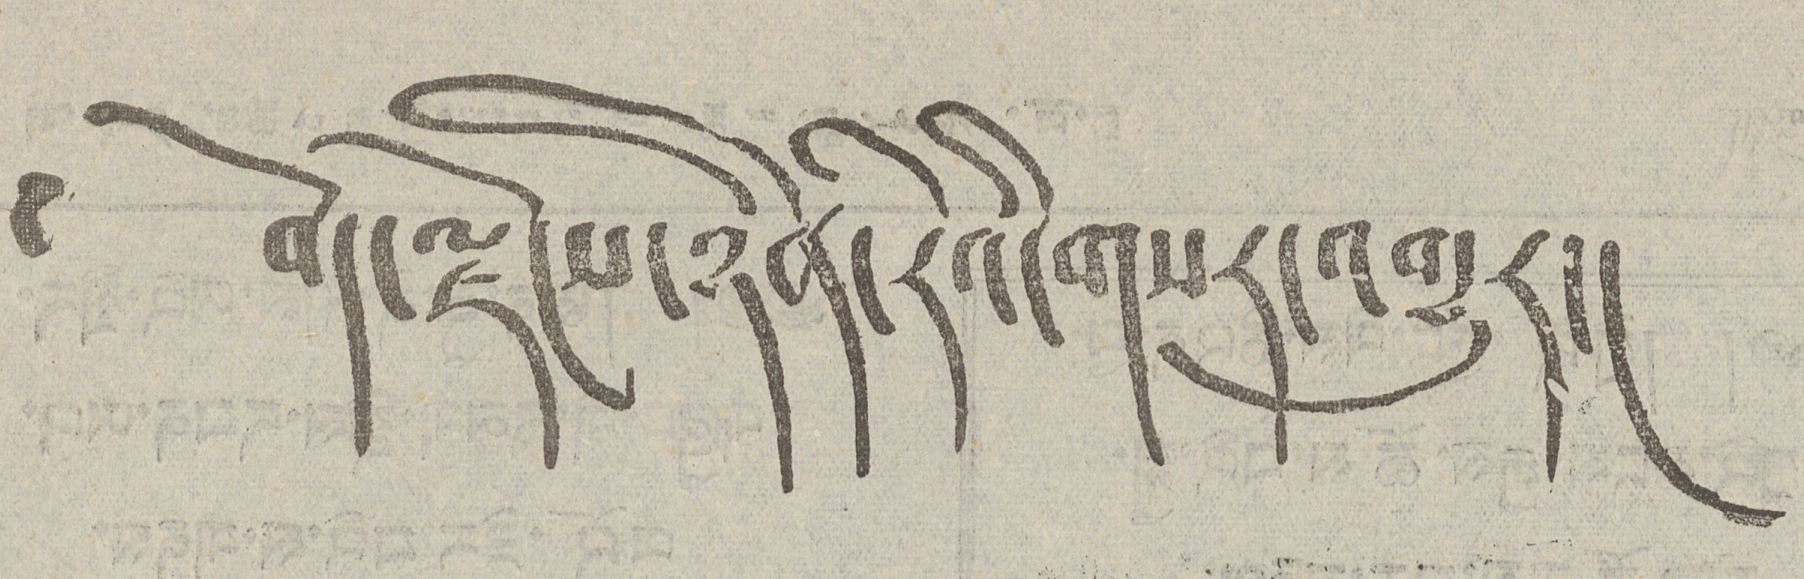༄ བོད་ལྗོངས་ཉིན་རེའི་གསར་འགྱུར།
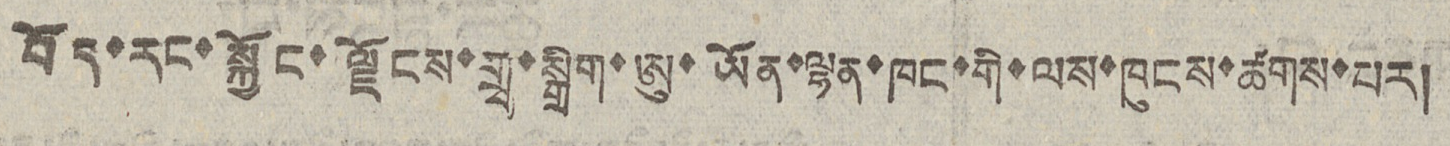བོད་རང་སྐྱོང་ལྗོངས་གྲྭ་སྒྲིག་ཨུ་ཡོན་ལྷན་ཁང་གི་ལས་ཁུངས་ཚགས་པར།
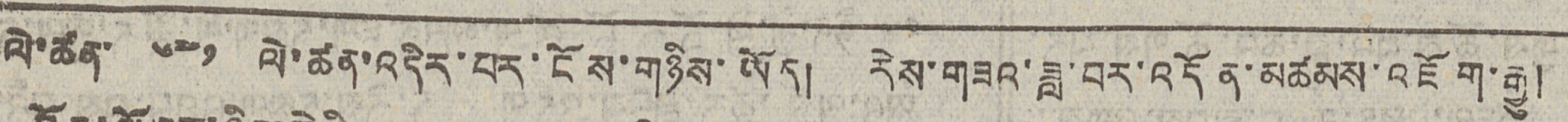ལེ་ཚན་ ༦༤༡ ལེ་ཚན་འདིར་པར་ངོས་གཉིས་ཡོད། རེས་གཟའ་ཟླ་བར་འདོན་མཚམས་འཇོག་རྒྱུ།
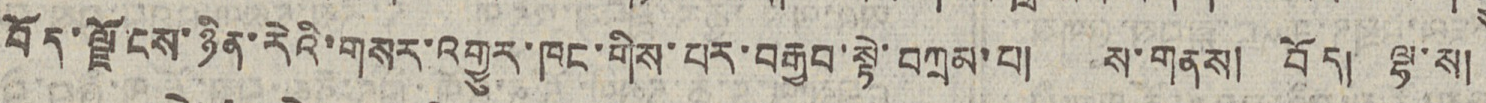བོད་ལྗོངས་ཉིན་རེའི་གསར་འགྱུར་ཁང་གིས་པར་བརྒྱབ་སྟེ་བཀྲམ་པ། ས་གནས། བོད། ལྟ་ས།
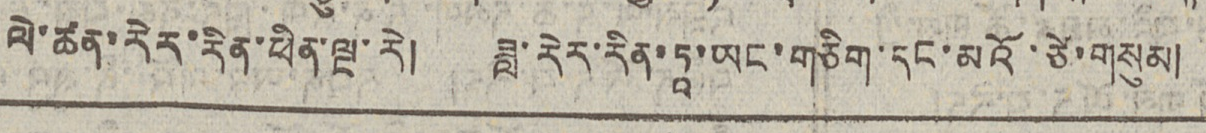ལེ་ཚན་རེར་རིན་ཕིན་ལྔ་རེ། ཟླ་རིར་རིན་ཏཱ་ཡང་གཅིག་དང་མའོ་ཙེ་གསུམ།
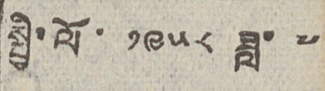སྤྱི་ལོ་ ༡༩༥༨ ཟླ་ ༧
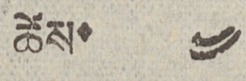ཚེས་ ༤
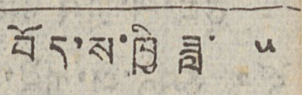བོད་ས་ཁྱི ཟླ་ ༥
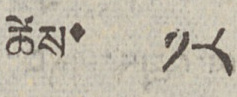ཚེས་ ༡༨
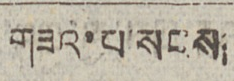གཟའ་པ་སངས།
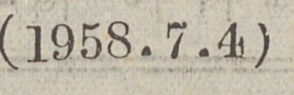(1958.7.4)
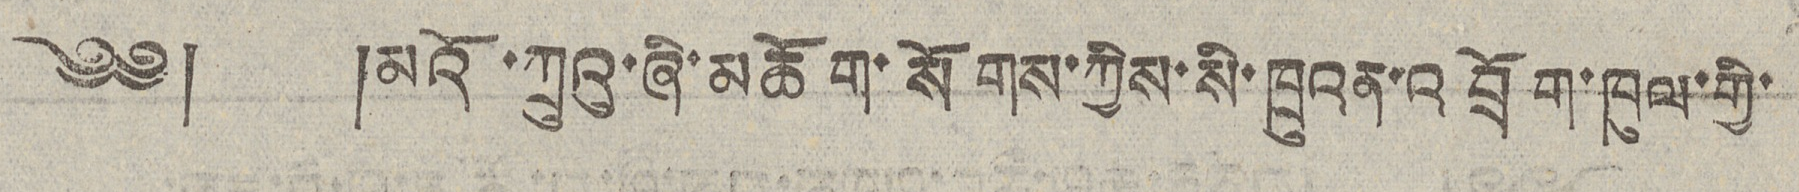༄༅། །མའོ་ཀྲུའུ་ཞི་མཆོག་སོགས་ཀྱིས་སི་ཁྲུའན་འབྲོག་ཁུལ་གྱི་
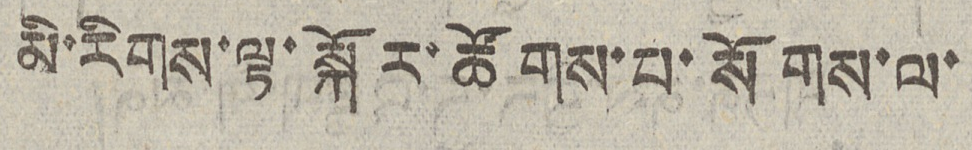མི་རིགས་ལྟ་སྐོར་ཚོགས་པ་སོགས་ལ་
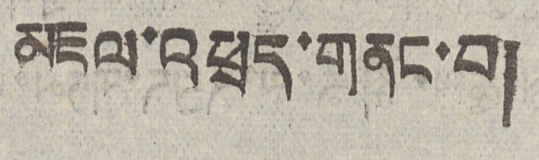མཇལ་འཕྲད་གནང་བ།
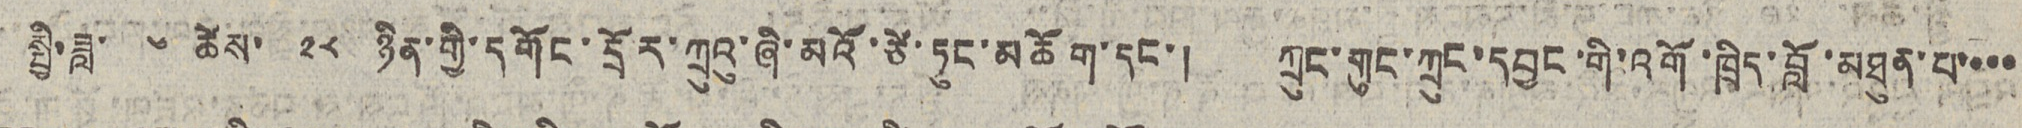སྤྱི་ཟླ་ ༦ ཚེས་ ༢༨ ཉིན་གྱི་དགོང་དྲོར་ཀྲུའུ་ཞི་མའོ་ཙེ་ཏུང་མཆོག་དང་། ཀྲུང་གུང་ཀྲུང་དབྱང་གི་འགོ་ཁྲིད་བློ་མཐུན་པ་་་་
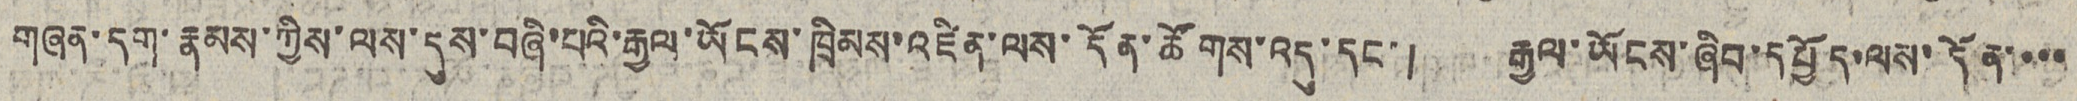གཞན་དག་རྣམས་ཀྱིས་ལས་དུས་བཞི་པའི་རྒྱལ་ཡོངས་ཁྲིམས་འཛིན་ལས་དོན་ཚོགས་འདུ་དང་། རྒྱལ་ཡོངས་ཞིབ་དཔྱོད་ལས་དོན་་་་
